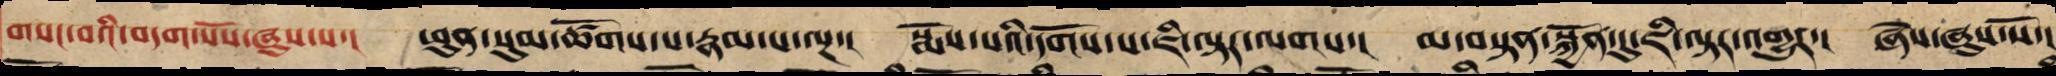གསང་བའི་བདག་པོས་ཞུས་པ་། ཕུན་སུམ་ཚོགས་པ་རྣམ་པ་ལྔ་། སྨོས་པའི་དགོས་པ་ཇི་ལྟར་ལགས་། མ་བསྟན་སྐྱོན་དུ་ཇི་ལྟར་འགྱུར་། ཞེས་ཞུས་སོ་།
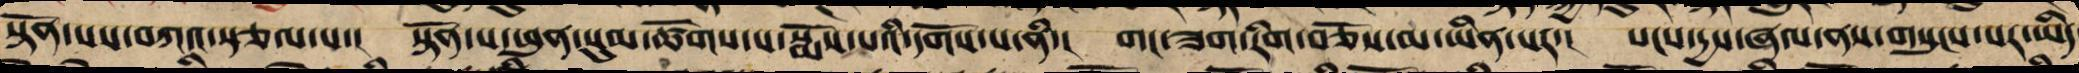སྟོན་པས་བཀའ་སྩལ་པ་། སྟོན་པ་ཕུན་སུམ་ཚོགས་པ་སྨོས་པའི་དགོས་པ་ནི་། གང་ཟག་རིག་བཅོས་མ་ཡིན་པར་། སངས་དྱས་ཞལ་ནས་གསུངས་པར་ཡིད
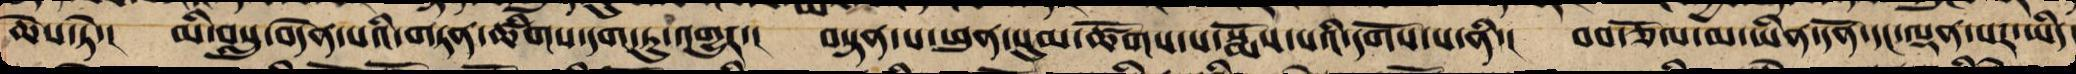ཆེས་ཏེ་། མི་བསླུ་བདེན་པའི་གཏན་ཚིགས་དག་ཏུ་འགྱུར་། བསྟན་པ་ཕུན་སུམ་ཚོགས་པ་སྨོས་པའི་དགོས་པ་ནི་། བབ་ཅོལ་མ་ཡིན་དོན་དང་ལྡན་པར་ཡིད་
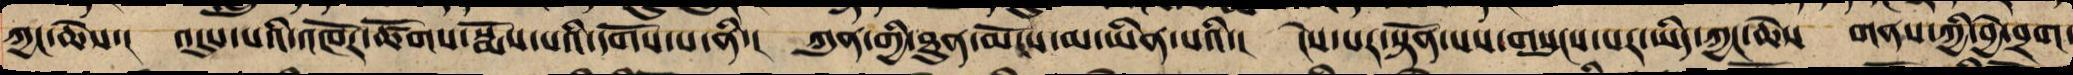ཀྱང་ཆེས་། འདུས་པའི་འཁོར་ཚོགས་སྨོས་པའི་དགོས་པ་ནི་། ཀུན་གྱི་ཐུན་མོང་མ་ཡིན་པའི་། ངེས་པར་སྟོན་པས་གསུངས་པར་ཡིད་ཀྱང་ཆེས་། གནས་ཀྱི་བྱེ་བྲག་
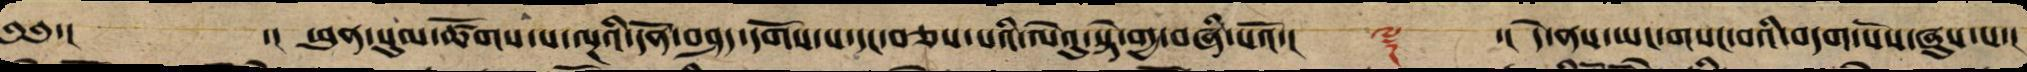༄༅་།  ་། ཕུན་སུམ་ཚོགས་པ་ལྔའི་དོན་བཤད་དགོས་པ་དང་བཅས་པའི་ལེའུ་སྟེ་གྱ་བཞི་པའོ་།། ༈ ་།། དེ་ནས་ཡང་གསང་བའི་བདག་པོས་ཞུས་པ་།
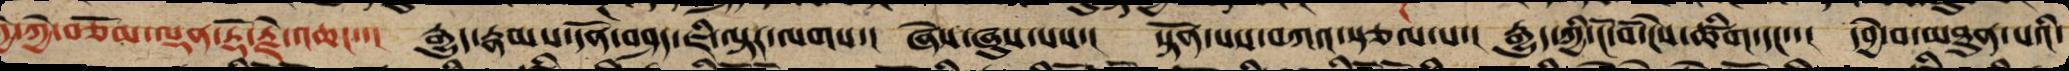ཀྱེ་ཀྱེ་བཅོམ་ལྡན་རྡོ་རྗེ་འཆང་་། རྒྱུད་རྣམས་དོན་བཤད་ཇི་ལྟར་ལགས་། ཞེས་ཞུས་པས་། སྟོན་པས་བཀའ་སྩལ་པ་། རྒྱུད་ཀྱི་ངོ་བོ་ངེས་ཚིག་དང་་། དབྱེ་བ་མཐུན་པའི་
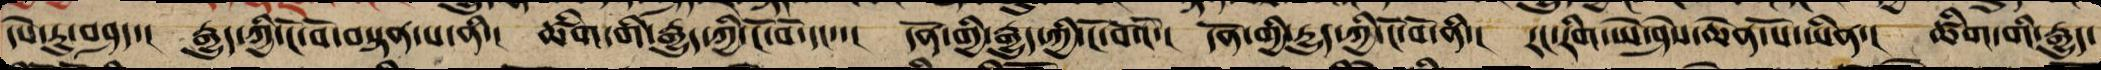དཔེ་རུ་བཤད་། རྒྱུད་ཀྱི་ངོ་བོ་བསྟན་པ་ནི་། ཚིག་གི་རྒྱུད་ཀྱི་ངོ་བོ་དང་་། དོན་གྱི་རྒྱུད་ཀྱི་ངོ་བོའོ་། དོན་གྱི་རྒྱུད་ཀྱི་ངོ་བོ་ནི་། རང་རིག་ཡེ་ཤེས་ཆེན་པོ་ཡིན་། ཚིག་གི་རྒྱུད་
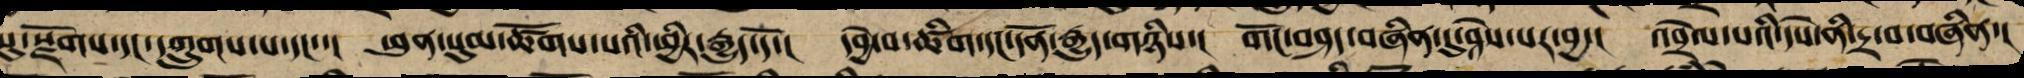སུ་སྫོགས་དང་དཀྲུགས་པ་དང་་། ཕུན་སུམ་ཚོགས་པའི་ཕྱིར་རྒྱུད་དོ་། དབྱེ་བ་ཚིག་དང་དོན་རྒྱུད་གཉིས་། གོང་བཤད་བཞིན་དུ་ཤེས་པར་བྱ་། འབྲེལ་བའི་དཔེ་ནི་དྲ་བ་བཞིན་།
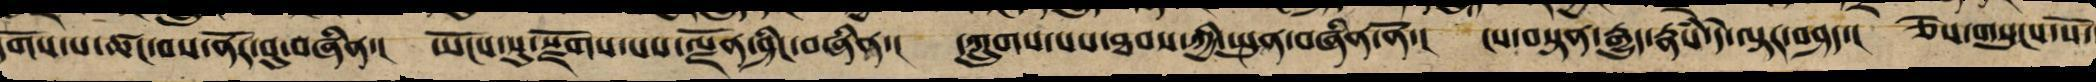དགོས་པ་ཚང་བའི་ནོར་བུ་བཞིན་། ཡོངས་སུ་སྫོགས་པ་ལྗོན་ཤིང་བཞིན་། དཀྲུགས་པས་ཐབས་ཀྱི་སྤུན་བཞིན་ནོ་། ངས་བསྟན་རྒྱུད་རྣཾས་དེ་ལྟར་བཤད་། ཅེས་གསུངས་སོ་
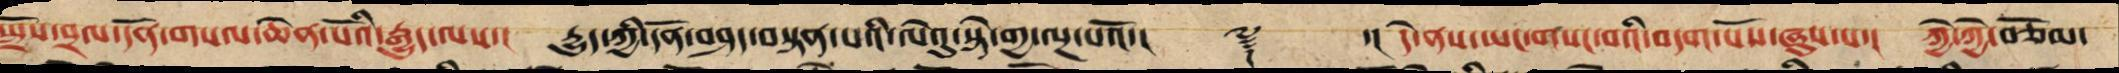སྤྲོས་བྲལ་དོན་གསལ་ཆེན་པོའི་རྒྱུད་ལས་། རྒྱུད་ཀྱི་དོན་བཤད་བསྟན་པའི་ལེའུ་སྟེ་གྱ་ལྔ་པའོ་།། ༈ ་། དེ་ནས་ཡང་གསང་བའི་བདག་པོས་ཞུས་པ་། ཀྱེ་ཀྱེ་བཅོམ་
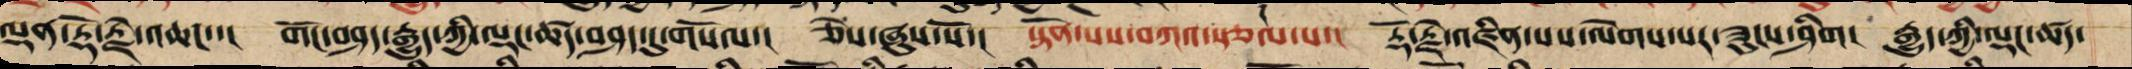ལྡན་རྡོ་རྗེ་འཆང་་། གོང་བཤད་རྒྱུད་ཀྱི་ལྡང་ཚད་བཤད་དུ་གསོལ་། ཅེས་ཞུས་སོ་། སྟོན་པས་བཀའ་སྩལ་པ་། རྡོ་རྗེ་འཛིན་པ་ལེགས་པར་ཟུངས་ཤིག། རྒྱུད་ཀྱི་ལྡང་ཚད་
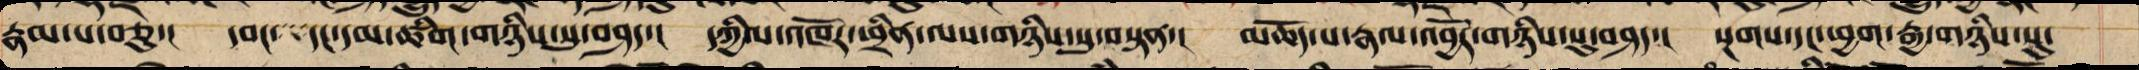རྣམ་པ་བཅུ་། དབང་དང་དམ་ཚིག་གཉིས་སུ་བཤད་། དཀྱིལ་འཁོར་ཕྲིན་ལས་གཉིས་སུ་བསྟན་། མཆོད་པ་རྣལ་འབྱོར་གཉིས་སུ་བཤད་། སྔགས་དང་ཕྱག་རྒྱ་གཉིས་སུ་
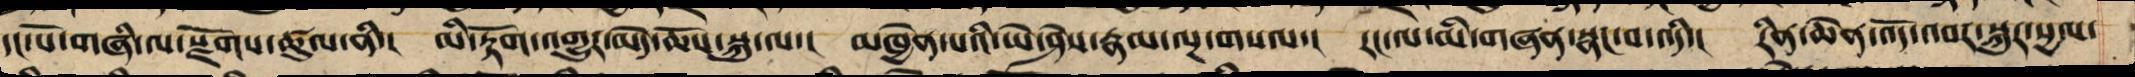དང་པོ་གཞི་ལ་སྫོགས་ཚུལ་ནི་། མི་རྟོག་འགྱུར་མེད་ཆོས་སྐུ་ལ་། མཁྱེན་པའི་ཡེ་ཤེས་རྣམ་ལྔ་གསལ་། རང་ལས་མི་གཞན་སྣང་བ་ནི་། རིན་ཆེན་འོད་འབར་སྐུར་སྱལ་
